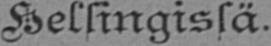Helsingissä.
